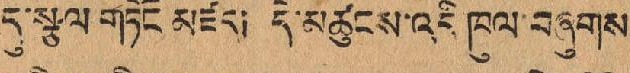དུ་སྩལ་གཏོང་མཛད། དེ་མཚུངས་འདི་ཁུལ་བཞུགས་
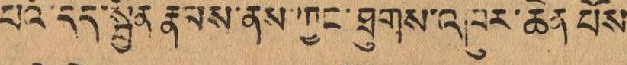པའི་དད་སྦྱིན རྣམས་ནས་ཀྱང་ཐུགས་འཁུར་ཆེན་པོས་
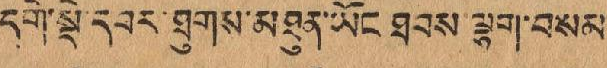དེག་སྡེ་དབང་ཐུགས་མཐུན་ཡོང ཐབས་ལྷག་བསམ་
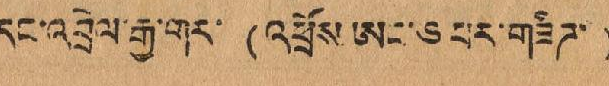དང་འབྲེལ་རྒྱ་གར་ (འཕྲོས་ཨང་༦ པར་གཟིཊ་)
